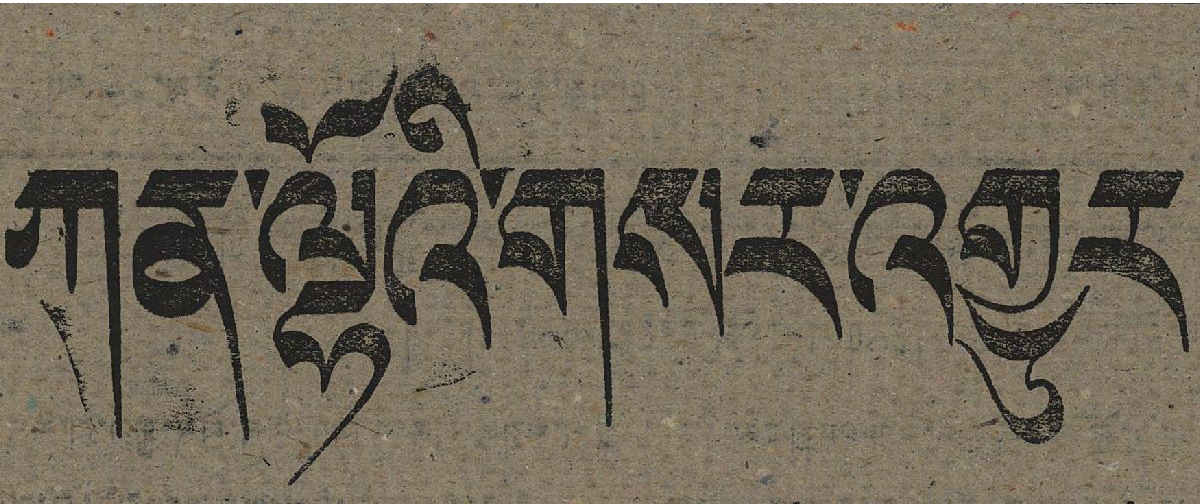ཀན་ལྷོའི་གསར་འགྱུར
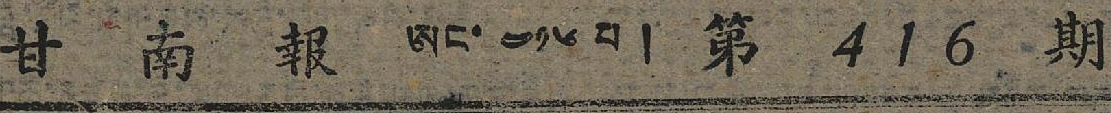甘 南 報 ཨང་ ༤༡༦ པ། 第 416 期
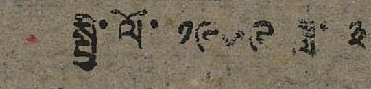སྤྱི་ལོ་ ༡༩༥༩ ཟླ་ ༣
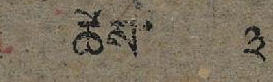ཚེས་ ༣
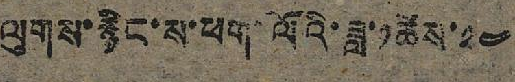ལུགས་རྙིང་ས་ཕག་ལོའི་ཟླ་༡ཚེས་༢༤
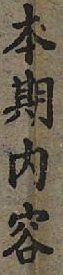本期內容
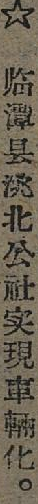☆ 临潭县洮北公社实現車輛化。
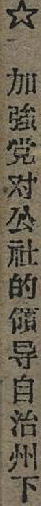☆ 加強党对公社的領导自治州下
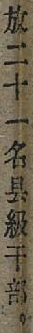放二十一名县級干部。
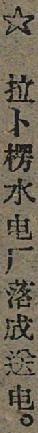☆ 拉卜楞水电厂落成送电。
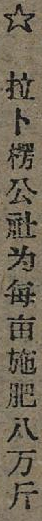☆ 拉卜楞公社为每亩施肥八万斤
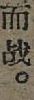而战。
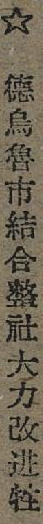☆ 德烏魯市結合整社大力改进牲
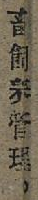畜飼养管理。
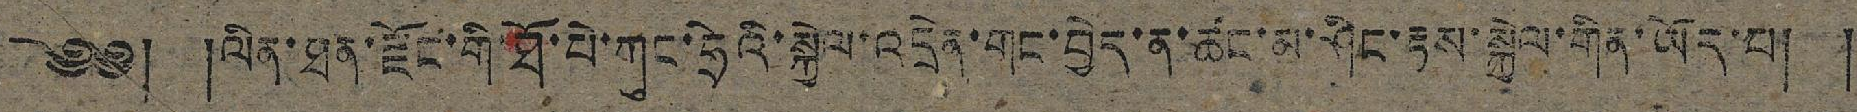༄༅། །ལིན་ཐན་རྫོང་གི་ཐོ་པེ་ཀུང་ཧྲེའི་སྐྱེལ་འདྲེན་གང་བྱེད་ན་ཚང་མ་ཤིང་རྟས་སྐྱེལ་གིན་ཡོད་པ། །
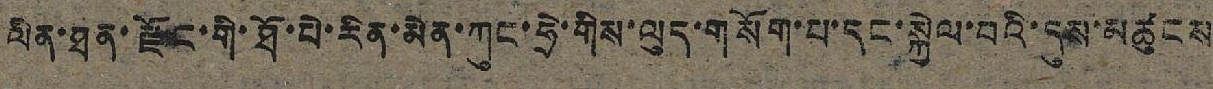ལིན་ཐན་རྫོང་གི་ཐོ་པེ་རིན་མེན་ཀུང་ཧྲེ་གིས་ལུད་གསོག་པ་དང་སྐྱེལ་བའི་དུས་མཚུངས་
